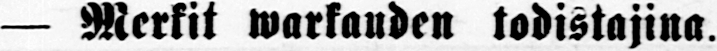— Merkit warkauden todistajina.
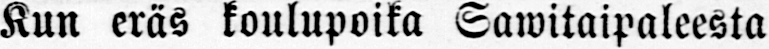Kun eräs koulupoika Sawitaipaleesta
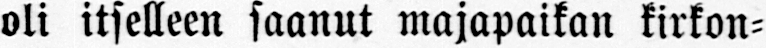oli itselleen saanut majapaikan kirkon-
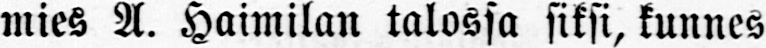mies A. Haimilan talossa siksi, kunnes
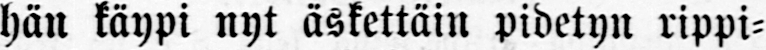hän käypi nyt äskettäin pidetyn rippi-
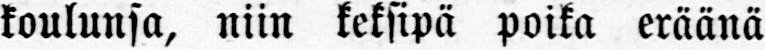koulunsa, niin keksipä poika eräänä
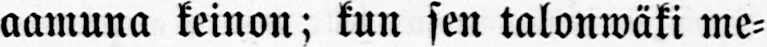aamuna keinon; kun sen talonwäki me-
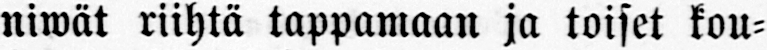niwät riihtä tappamaan ja toiset kou-
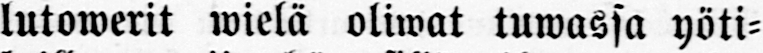lutowerit wielä oliwat tuwassa yöti-
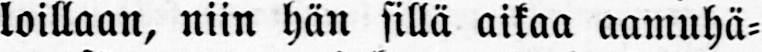loillaan, niin hän sillä aikaa aamuhä-
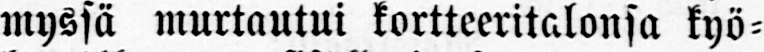myssä murtautui kortteeritalonsa kyö-
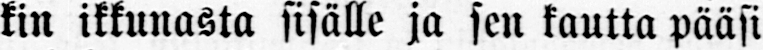kin ikkunasta sisälle ja sen kautta pääsi
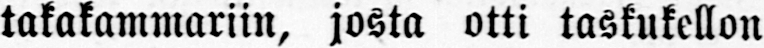takakammariin, josta otti taskukellon
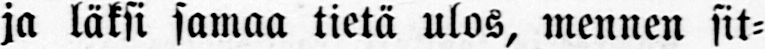ja läksi samaa tietä ulos, mennen sit-
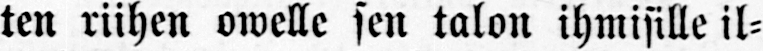ten riihen owelle sen talon ihmisille il-
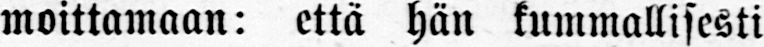moittamaan: että hän kummallisesti
